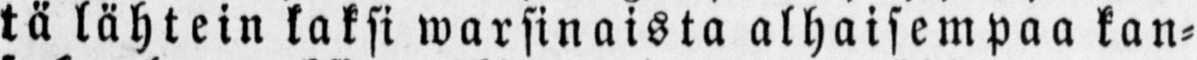tä lähtein kaksi warsinaista alhaisempaa kan-
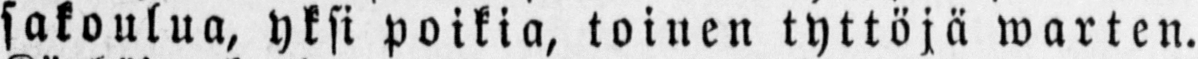sakoulua, yksi poikia, toinen tyttöjä warten.
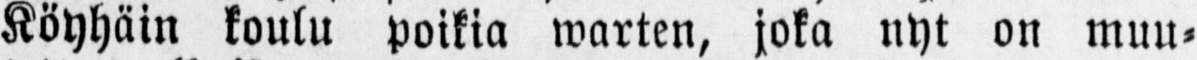Köyhäin koulu poikia warten, joka nyt on muu-
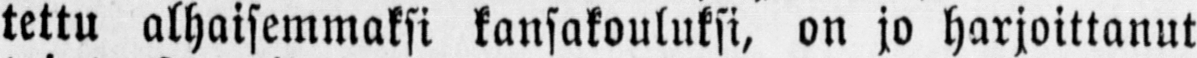tettu alhaisemmaksi kansakouluksi, on jo harjoittanut
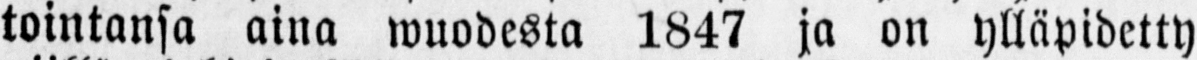tointansa aina wuodesta 1847 ja on ylläpidetty
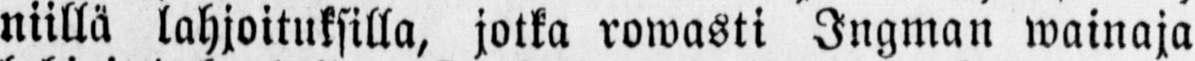niillä lahjoituksilla, jotka rowasti Ingman wainaja
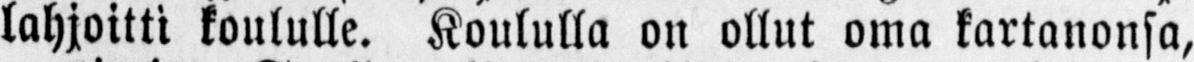lahjoitti koululle. Koululla on ollut oma kartanonsa,
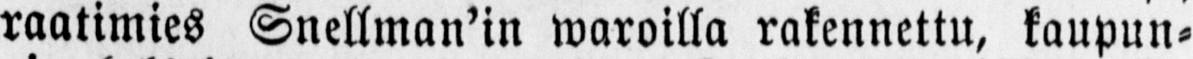raatimies Snellman’in waroilla rakennettu, kaupun-
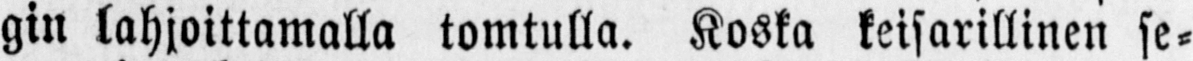gin lahjoittamalla tomtulla. Koska keisarillinen se-
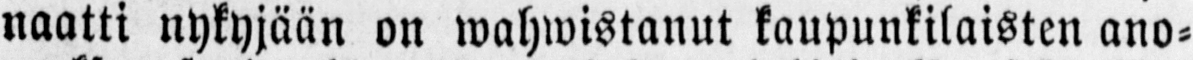naatti nykyjään on wahwistanut kaupunkilaisten ano-
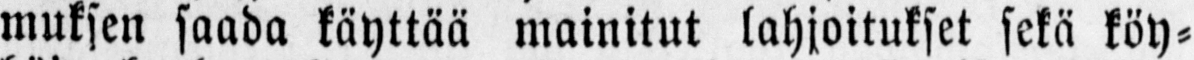muksen saada käyttää mainitut lahjoitukset sekä köy-
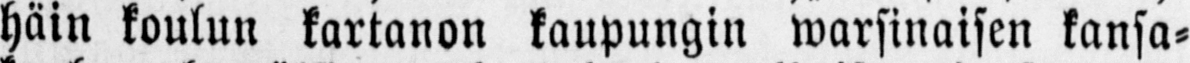häin koulun kartanon kaupungin warsinaisen kansa-
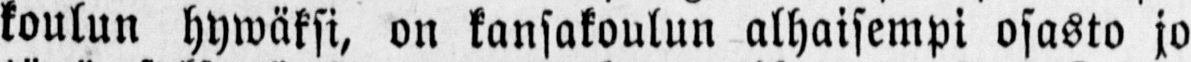koulun hywäksi, on kansakoulun alhaisempi osasto jo
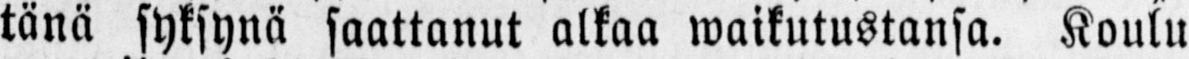tänä syksynä saattanut alkaa waikutustansa. Koulu
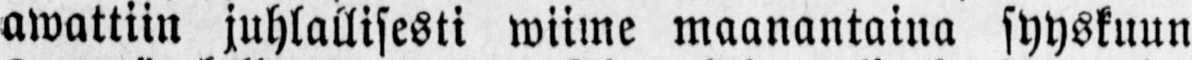awattiin juhlallisesti wiime maanantaina syyskuun
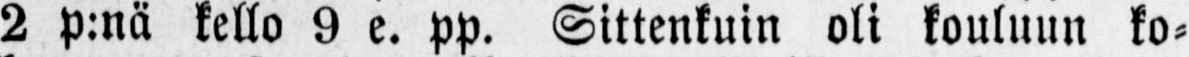2 p:nä kello 9 e. pp. Sittenkuin oli kouluun ko-
